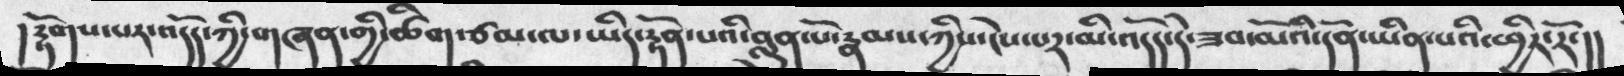། རྟོགས་པར་འདོད་ཀྱི་གཞན་གྱི་ཚིག་ཙམ་ལ་ཡིད་རྟོན་པའི་བླུན་པོ་རྣམས་ཀྱིས་ངེས་པར་མི་འདོད་དེ་ཟབ་མོའི་དོན་ཡིན་པའི་ཕྱིར་རོ་།།
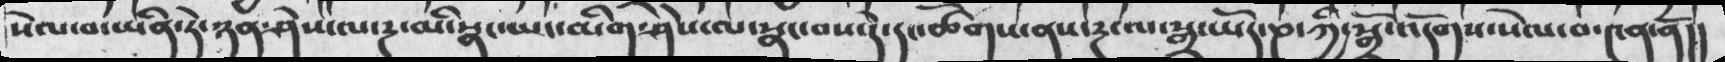སེལ་བ་ཡིན་ཏེ་ཉན་ཤེས་ལ་རྔ་མི་སྣང་ཡང་མིག་ཤེས་ལ་སྣང་བས་དེ་དང་ཚོགས་ནས་རྔ་ལ་སྒྲ་ཡོད་ཎ་ཀྱི་སྒྲོ་འདོགས་སེལ་བ་༤ན་ནོ།།
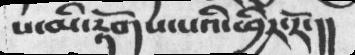ས་མི་རྟོགས་པའི་ཕྱིར་རོ་།།
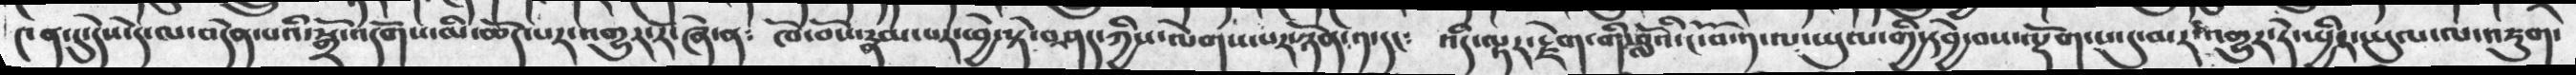༤ན་དུ་དེ་ལ་བདེན་པའི་སྒྲོ་འདོགས་མི་ཆོད་པར་འགྱུར་རོ་ཞེ་ན༴   ཁོ་བོས་རྣམ་པར་ཕྱེ་སྟེ་བཤད་ཀྱིས་ལེགས་པར་ཉོན་༡་དང༴   འདི་ལྟར་རྗེག་གི་བློའི་ངོ་བོ་༡་ལ་ཡུལ་གྱི་དབྱེ་བས་ལྡོག་པ་དུ་མར་འགྱུར་ཏེ་སྤྱིར་ཡུལ་ལ་འཇུག་
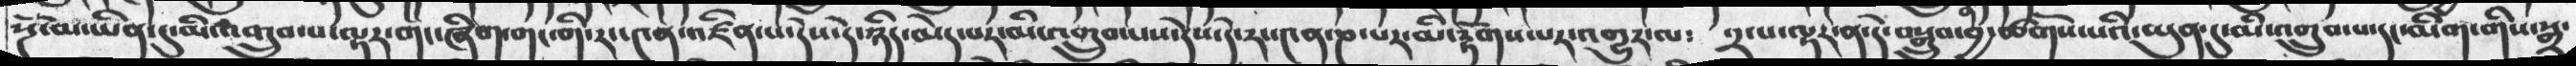སྔོ་མ་ཡིན་དུ་མིའ་གྲུབ་པ་ལྟར་གང་ཞིག་གང་གི་རང་༤ན་འཛིན་པ་དེས་དེ་ཉིད་མེད་པར་མི་འགྲུབ་པས་དེས་དེ་རང་༤ན་ཎ་པར་མི་རྟོགས་པར་འགྱུར་ལ༴  ༢་པ་ལྟར་ན་དེ་བསྒྲུབ་བྱ་ཚོགས་པའི་ཡུན་དུ་མི་འགྲུབ་པ་དང་མིག་གིས་སྒྲ་
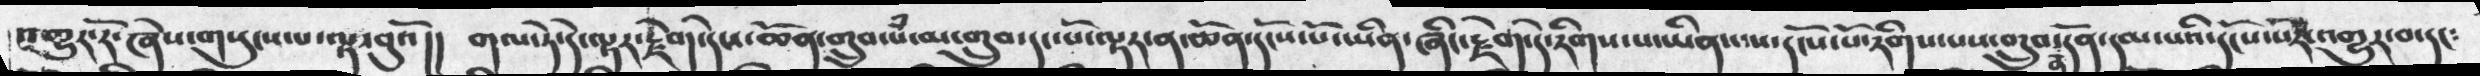འགྱུར་རོ་ཞེས་གསུངས་པ་ལྟ་བུའོ།།  གལ་ཏེ་དེ་ལྟར་རྗེག་དེས་ཆོན་གྲུབ་བཾ་མ་གྲུབ་དང་པོ་ལྟར་ན་ཆོན་དངོས་པོ་ཡིན་ཞིང་རྗེག་དེ་རིགས་པ་ཡིན་པས་དངོས་པོ་རིགས་པས་གྲུབ་ན་དོན་དམ་པའི་དངོས་པོར་འགྱུར་བ་དང༴
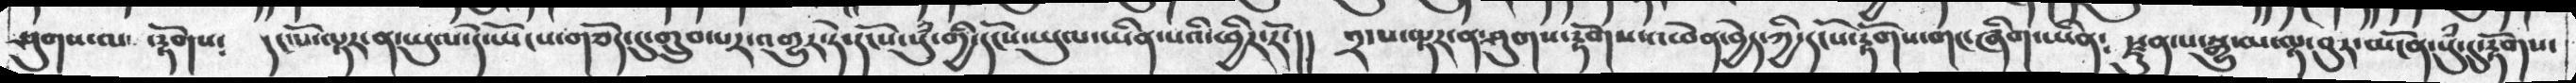ཤུགས་ལ་   ་རྟོགས༴  དང་པོ་ལྟར་ན་ཡུལ་དེ་ཡོངས་གཅོད་དུ་གྲུབ་པར་འགྱུར་དེ་དངོས་སུཾ་གྱི་དངོས་ཡུལ་ཡིན་པའི་ཕྱིར་རོ་།།  ༢་པ་ལྟར་ན་ཤུགས་རྟོགས་འཕེན་བྱེད་ཀྱི་དངོས་རྟོགས་གང་ཞིག་ཡིན༴  རྫུན་པ་སྒྱུ་མ་ལྟ་བུར་མངོན་སུཾ་དུ་རྟོགས་
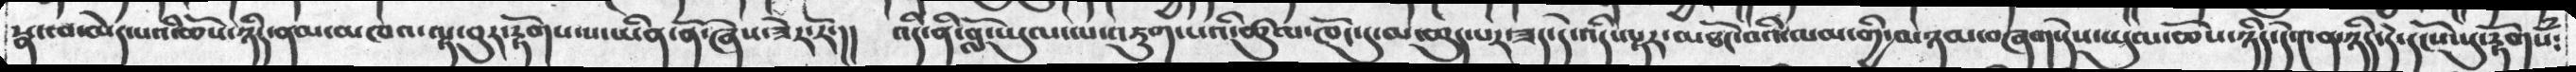སྣང་བ་མེད་པའི་ཆོས་ཉིད་ནམ་མཁའ་ལྟ་བུར་རྟོགས་པ་ཡིན་ནོ་ཞེས་ཟེར་རོ་།།  འདི་ནི་བློ་ཡུལ་ལ་འཇུག་པའི་ཚུལ་ཁོང་དུ་མ་ཆུད་པར་ཟད་དེ་འདི་ལྟར་མཐོང་བའི་ལམ་གྱི་མཉམ་བཞག་དེས་ཡུལ་ཆོས་ཉིད་དེ་༤ན་ཉིད་དེ་དངོས་སུ་རྟོགསཾ༴
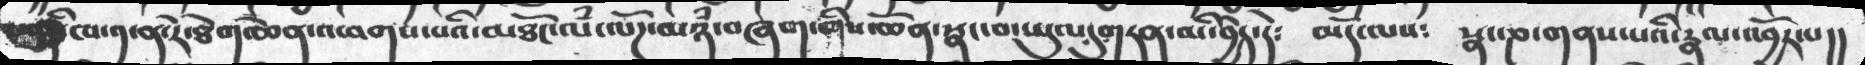ཁ་༡་ན་རེ་ཐེག་ཆེན་འཕགས་པའི་མཐོང་ལཾ་ལོཌ་མཉྃ་བཞག་གིས་ཆོན་སྣང་བ་ཡུལ་དུགཏན་མི་བྱེད་ད༴   མདོ་ལས༴   སྣ་ཎ་གནས་པའི་རྣལ་འབྱོར་པ།།
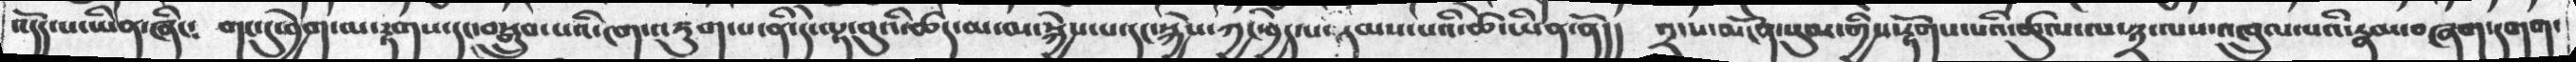འདོད་པ་ཡིན་ཞིང༴  གང་དུ་བྱེག་ལ་རྟགས་དང་བསྒྲུབ་པའི་ངག་འཇུག་པ་ནི་ལྟ་བུའི་ཚད་མ་མ་སྐྱེས་ཀྱང་བྱེད་པ་བདམས་པའི་ཚེ་ཡིན་ནོ།།  ༢་པ་མངོན་སུམ་གྱིས་རྟོགས་པའི་ཚུལ་ལ་༣་ལས་འཁྲུལ་པའི་རྣམ་བཞག་དགག་
